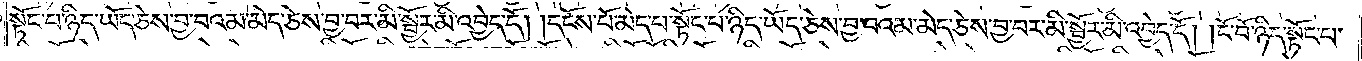སྟོང་པ་ཉིད་ཡོད་ཅེས་བྱ་བའམ་མེད་ཅེས་བྱ་བར་མི་སྦྱོར་མི་འབྱེད་དོ། །དངོས་པོ་མེད་པ་སྟོང་པ་ཉིད་ཡོད་ཅེས་བྱ་བའམ་མེད་ཅེས་བྱ་བར་མི་སྦྱོར་མི་འབྱེད་དོ། །ངོ་བོ་ཉིད་སྟོང་པ་
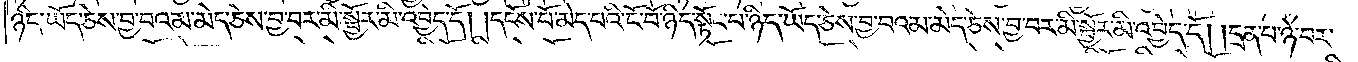ཉིད་ཡོད་ཅེས་བྱ་བའམ་མེད་ཅེས་བྱ་བར་མི་སྦྱོར་མི་འབྱེད་དོ། །དངོས་པོ་མེད་པའི་ངོ་བོ་ཉིད་སྟོང་པ་ཉིད་ཡོད་ཅེས་བྱ་བའམ་མེད་ཅེས་བྱ་བར་མི་སྦྱོར་མི་འབྱེད་དོ། །དྲན་པ་ཉེ་བར་
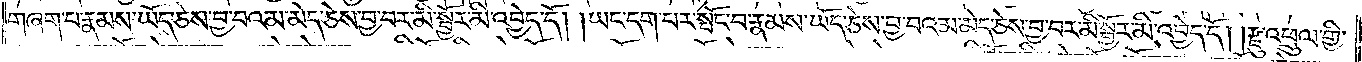གཞག་པ་རྣམས་ཡོད་ཅེས་བྱ་བའམ་མེད་ཅེས་བྱ་བར་མི་སྦྱོར་མི་འབྱེད་དོ། །ཡང་དག་པར་སྤོང་བ་རྣམས་ཡོད་ཅེས་བྱ་བའམ་མེད་ཅེས་བྱ་བར་མི་སྦྱོར་མི་འབྱེད་དོ། །རྫུ་འཕྲུལ་གྱི་
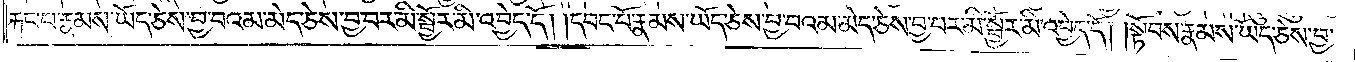རྐང་པ་རྣམས་ཡོད་ཅེས་བྱ་བའམ་མེད་ཅེས་བྱ་བར་མི་སྦྱོར་མི་འབྱེད་དོ། །དབང་པོ་རྣམས་ཡོད་ཅེས་བྱ་བའམ་མེད་ཅེས་བྱ་བར་མི་སྦྱོར་མི་འབྱེད་དོ། །སྟོབས་རྣམས་ཡོད་ཅེས་བྱ་
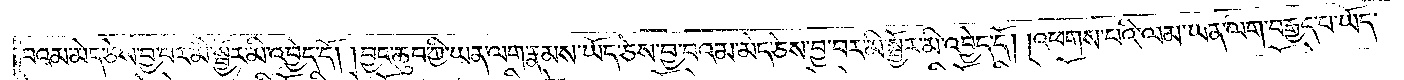བའམ་མེད་ཅེས་བྱ་བར་མི་སྦྱོར་མི་འབྱེད་དོ། །བྱང་ཆུབ་ཀྱི་ཡན་ལག་རྣམས་ཡོད་ཅེས་བྱ་བའམ་མེད་ཅེས་བྱ་བར་མི་སྦྱོར་མི་འབྱེད་དོ། །འཕགས་པའི་ལམ་ཡན་ལག་བརྒྱད་པ་ཡོད་
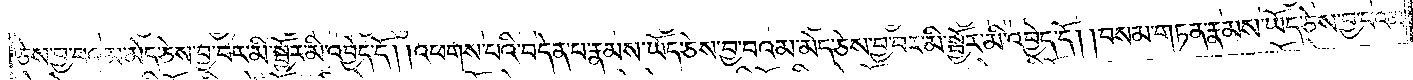ཅེས་བྱ་བའམ་མེད་ཅེས་བྱ་བར་མི་སྦྱོར་མི་འབྱེད་དོ། །འཕགས་པའི་བདེན་པ་རྣམས་ཡོད་ཅེས་བྱ་བའམ་མེད་ཅེས་བྱ་བར་མི་སྦྱོར་མི་འབྱེད་དོ། །བསམ་གཏན་རྣམས་ཡོད་ཅེས་བྱ་བའམ་
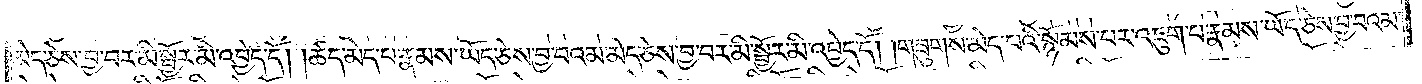མེད་ཅེས་བྱ་བར་མི་སྦྱོར་མི་འབྱེད་དོ། །ཚད་མེད་པ་རྣམས་ཡོད་ཅེས་བྱ་བའམ་མེད་ཅེས་བྱ་བར་མི་སྦྱོར་མི་འབྱེད་དོ། །གཟུགས་མེད་པའི་སྙོམས་པར་འཇུག་པ་རྣམས་ཡོད་ཅེས་བྱ་བའམ་
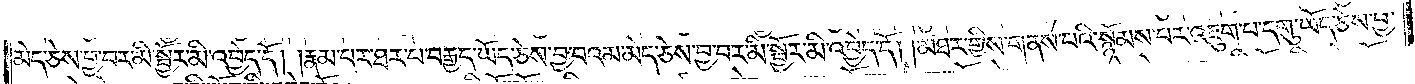མེད་ཅེས་བྱ་བར་མི་སྦྱོར་མི་འབྱེད་དོ། །རྣམ་པར་ཐར་པ་བརྒྱད་ཡོད་ཅེས་བྱ་བའམ་མེད་ཅེས་བྱ་བར་མི་སྦྱོར་མི་འབྱེད་དོ། །མཐར་གྱིས་གནས་པའི་སྙོམས་པར་འཇུག་པ་དགུ་ཡོད་ཅེས་བྱ་
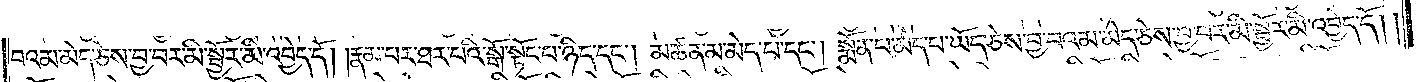བའམ་མེད་ཅེས་བྱ་བར་མི་སྦྱོར་མི་འབྱེད་དོ། །རྣམ་པར་ཐར་པའི་སྒོ་སྟོང་པ་ཉིད་དང༌། མཚན་མ་མེད་པ་དང༌། སྨོན་པ་མེད་པ་ཡོད་ཅེས་བྱ་བའམ་མེད་ཅེས་བྱ་བར་མི་སྦྱོར་མི་འབྱེད་དོ། །
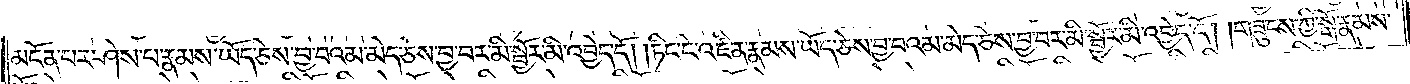མངོན་པར་ཤེས་པ་རྣམས་ཡོད་ཅེས་བྱ་བའམ་མེད་ཅེས་བྱ་བར་མི་སྦྱོར་མི་འབྱེད་དོ། །ཏིང་ངེ་འཛིན་རྣམས་ཡོད་ཅེས་བྱ་བའམ་མེད་ཅེས་བྱ་བར་མི་སྦྱོར་མི་འབྱེད་དོ། །གཟུངས་ཀྱི་སྒོ་རྣམས་
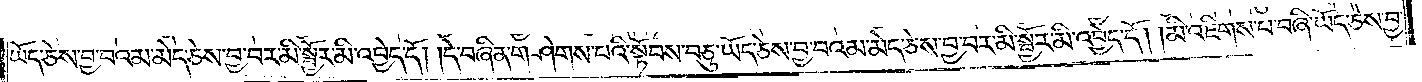ཡོད་ཅེས་བྱ་བའམ་མེད་ཅེས་བྱ་བར་མི་སྦྱོར་མི་འབྱེད་དོ། །དེ་བཞིན་གཤེགས་པའི་སྟོབས་བཅུ་ཡོད་ཅེས་བྱ་བའམ་མེད་ཅེས་བྱ་བར་མི་སྦྱོར་མི་འབྱེད་དོ། །མི་འཇིགས་པ་བཞི་ཡོད་ཅེས་བྱ་
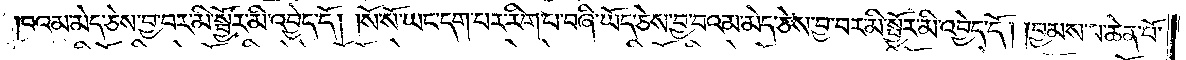བའམ་མེད་ཅེས་བྱ་བར་མི་སྦྱོར་མི་འབྱེད་དོ། །སོ་སོ་ཡང་དག་པར་རིག་པ་བཞི་ཡོད་ཅེས་བྱ་བའམ་མེད་ཅེས་བྱ་བར་མི་སྦྱོར་མི་འབྱེད་དོ། །བྱམས་པ་ཆེན་པོ་
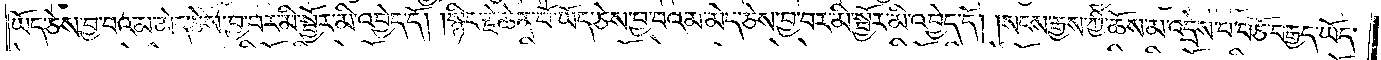ཡོད་ཅེས་བྱ་བའམ་མེད་ཅེས་བྱ་བར་མི་སྦྱོར་མི་འབྱེད་དོ། །སྙིང་རྗེ་ཆེན་པོ་ཡོད་ཅེས་བྱ་བའམ་མེད་ཅེས་བྱ་བར་མི་སྦྱོར་མི་འབྱེད་དོ། །སངས་རྒྱས་ཀྱི་ཆོས་མ་འདྲེས་པ་བཅོ་བརྒྱད་ཡོད་
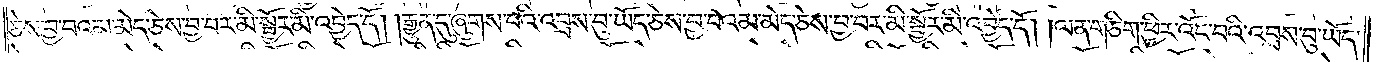ཅེས་བྱ་བའམ་མེད་ཅེས་བྱ་བར་མི་སྦྱོར་མི་འབྱེད་དོ། །རྒྱུན་དུ་ཞུགས་པའི་འབྲས་བུ་ཡོད་ཅེས་བྱ་བའམ་མེད་ཅེས་བྱ་བར་མི་སྦྱོར་མི་འབྱེད་དོ། །ལན་གཅིག་ཕྱིར་འོང་བའི་འབྲས་བུ་ཡོད་
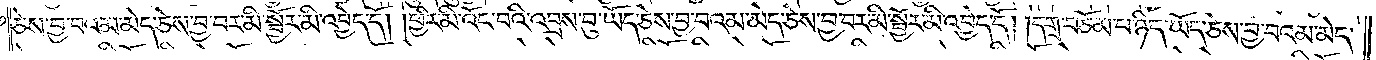ཅེས་བྱ་བའམ་མེད་ཅེས་བྱ་བར་མི་སྦྱོར་མི་འབྱེད་དོ། །ཕྱིར་མི་འོང་བའི་འབྲས་བུ་ཡོད་ཅེས་བྱ་བའམ་མེད་ཅེས་བྱ་བར་མི་སྦྱོར་མི་འབྱེད་དོ། །དགྲ་བཅོམ་པ་ཉིད་ཡོད་ཅེས་བྱ་བའམ་མེད་
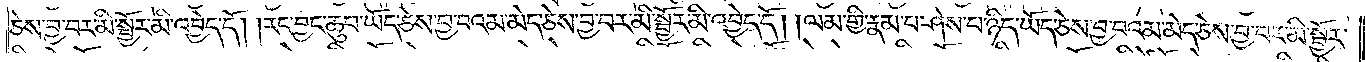ཅེས་བྱ་བར་མི་སྦྱོར་མི་འབྱེད་དོ། །རང་བྱང་ཆུབ་ཡོད་ཅེས་བྱ་བའམ་མེད་ཅེས་བྱ་བར་མི་སྦྱོར་མི་འབྱེད་དོ། །ལམ་གྱི་རྣམ་པ་ཤེས་པ་ཉིད་ཡོད་ཅེས་བྱ་བའམ་མེད་ཅེས་བྱ་བར་མི་སྦྱོར་
